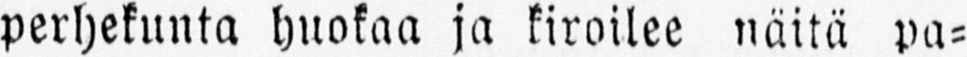perhekunta huokaa ja kiroilee näitä pa-
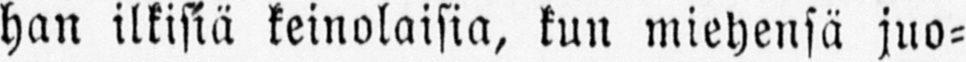han ilkisiä keinolaisia, kun miehensä juo-
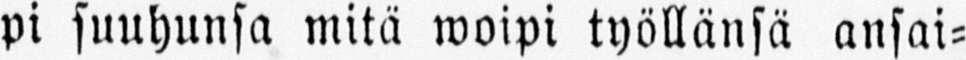pi suuhunsa mitä woipi työllänsä ansai-
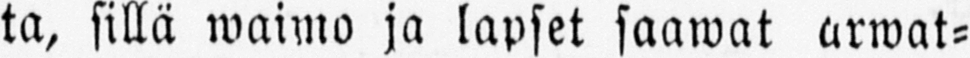ta, sillä waimo ja lapset saawat arwat-
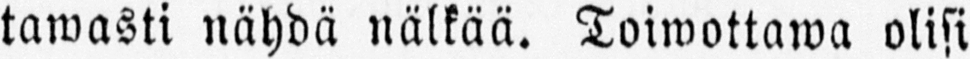tawasti nähdä nälkää. Toiwottawa olisi
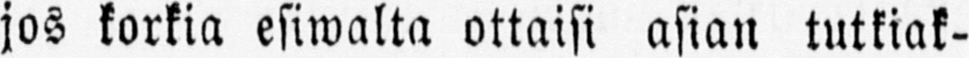jos korkia esiwalta ottaisi asian tutkiak-
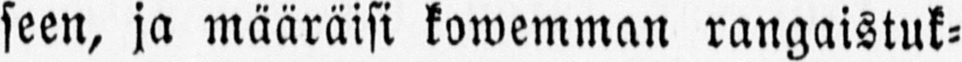seen, ja määräisi kowemman rangaistuk-
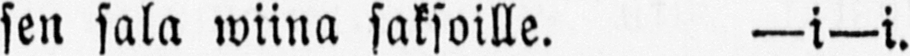sen sala wiina saksoille. —i—i.
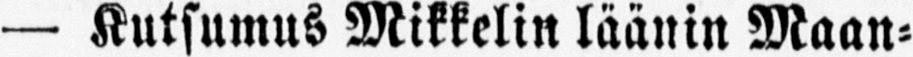— Kutsumus Mikkelin läänin Maan-
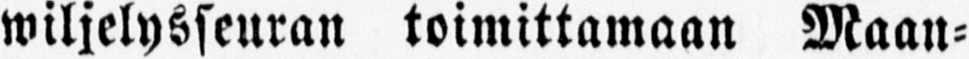wiljelysseuran toimittamaan Maan-
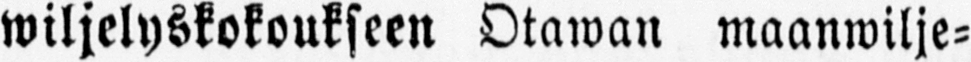wiljelyskokoukseen Otawan maanwilje-
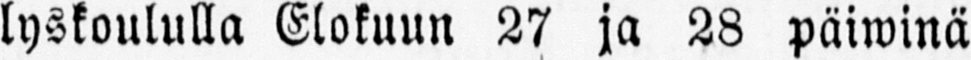lyskoululla Elokuun 27 ja 28 päiwinä
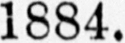1884.
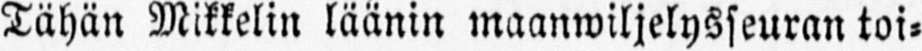Tähän Mikkelin läänin maanwiljelysseuran toi-
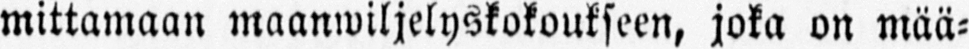mittamaan maanwiljelyskokoukseen, joka on mää-
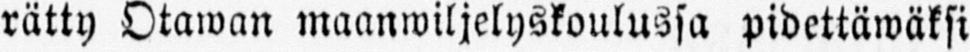rätty Otawan maanwiljelyskoulussa pidettäwäksi
